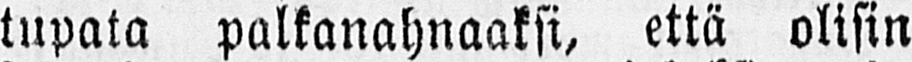tupata palkanahnaaksi, että olisin
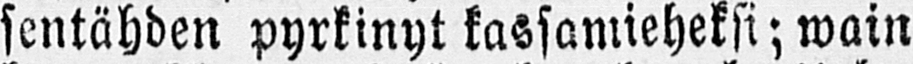sentähden pyrkinyt kassamieheksi; wain
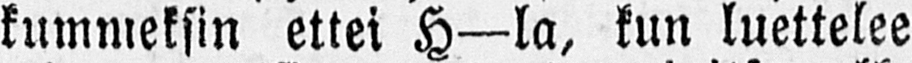kummeksin ettei H—la, kun luettelee
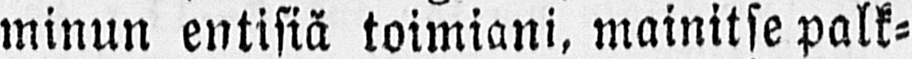minun entisiä toimiani, mainitse palk-
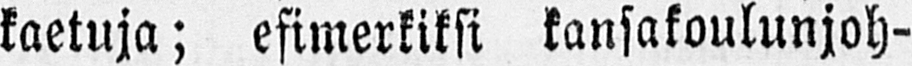kaetuja; esimerkiksi kansakoulunjoh-
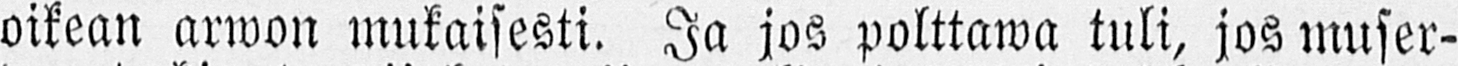oikean arwon mukaisesti. Ja jos polttawa tuli, jos muser-
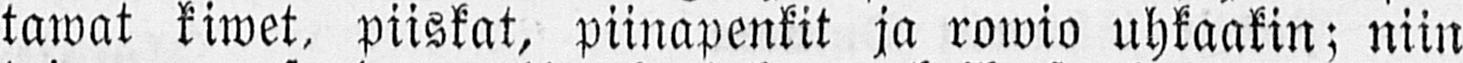tawat kiwet, piiskat, piinapenkit ja rowio uhkaakin; niin
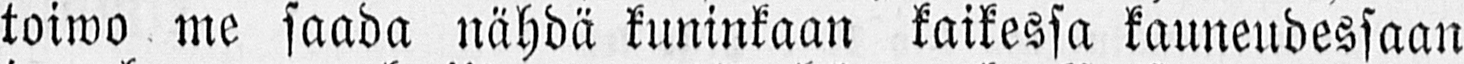toiwo me saada nähdä kuninkaan kaikessa kauneudessaan
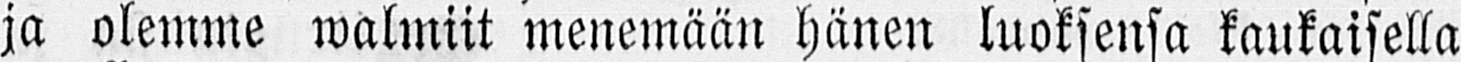ja olemme walmiit menemään hänen luoksensa kaukaisella
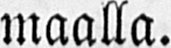maalla.
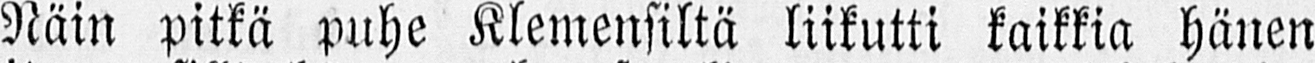Näin pitkä puhe Klemensiltä liikutti kaikkia hänen
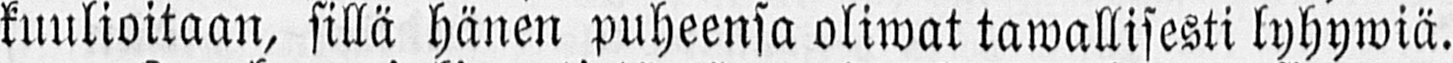kuulioitaan, sillä hänen puheensa oliwat tawallisesti lyhywiä.
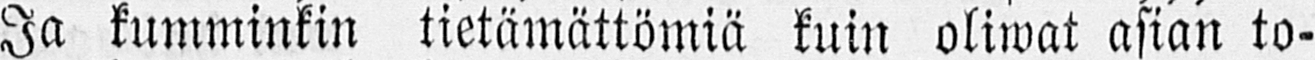Ja kumminkin tietämättömiä kuin oliwat asian to-
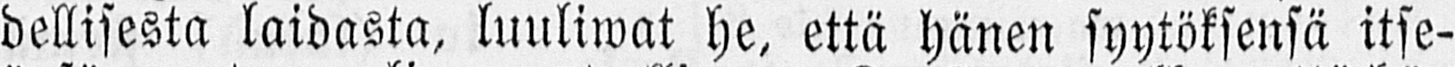dellisesta laidasta, luuliwat he, että hänen syytöksensä itse-
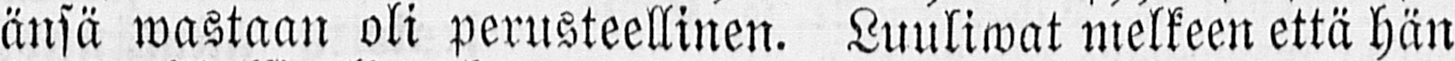änsä wastaan oli perusteellinen. Luuliwat melkeen että hän
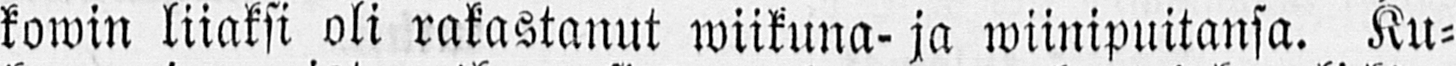kowin liiaksi oli rakastanut wiikuna- ja wiinipuitansa. Ku-
